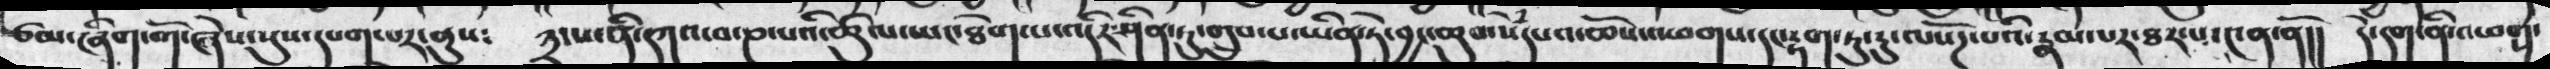ཙམ་ཞིག་གོ་ཞེས་སུས་དཔག་པར་ནུས༴ ༣་པ་ནི་དཀའ་བ་ཎ་པའི་ཚུལ་ཡང་ཐེག་པ་འདིར་ཤིན་ཏུ་གྲུབ་པ་ཡིན་ཏེ་བྱང་ཆུབ་སེཾདཔའ་ཆོས་འཕགས་དང་རྟག་ཏུ་རུ་ལསོཌ་པའི་རྣམ་པར་ཐར་པ་༤ན་ནོ།། དེ་དག་ནི་འཕག་
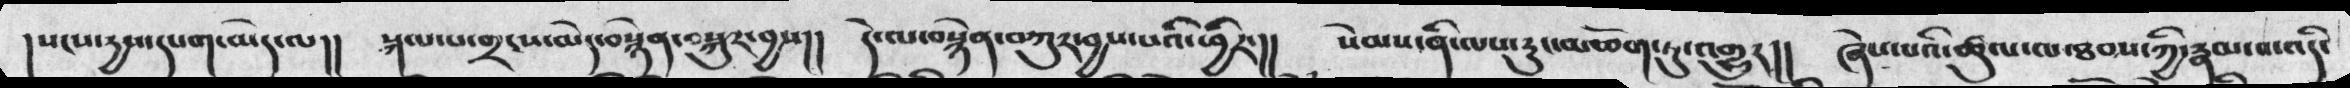།སངས་དྱས་དཔག་མེད་ལ།།  སྐལ་པ་གྲངས་མེད་བསྙེན་བསྐུར་བྱས།།  དེ་ལ་བསྙེན་བཀུར་བྱས་པའི་ཕྱིར་།།  སེམས་ནི་ལས་རུང་མཆོག་ཏུ་འགྱུར།།  ཞེས་པའི་ཚུལ་ལ་ཐབས་ཀྱི་རྣམ་པ་འདི་
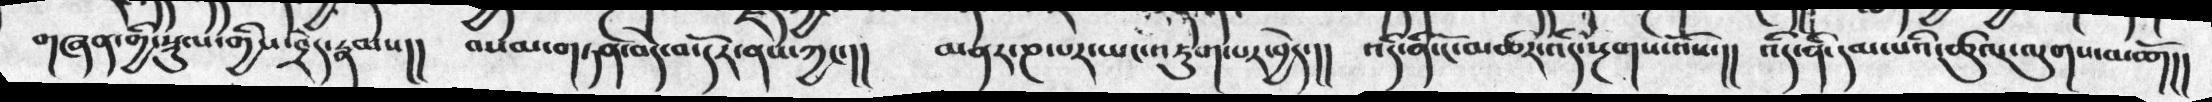གཞཉ་གྱི་སྡུལ་གྱིས་བྲེད་རྣམས།། བསམ་གཏན་བདེ་བ་དོར་ནས་ཀྱང་།། མནར་ཎ་པར་ཡང་འཇུག་པར་བྱེད་།། འདི་ནི་ངོ་མཚར་འདི་སྔགས་འོས་།། འདི་ནི་དམ་པའི་ཚུལ་ལུགས་མཆོད།།
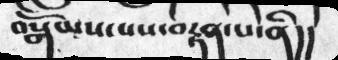བསྒོམས་པས་བརྟན་པ་ནི།།
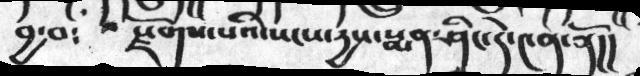བྱ་བ༴   སྫོགས་པའི་སངས་དྱས་སྨན་ཤིང་དེ་༤ན་ནོ།།
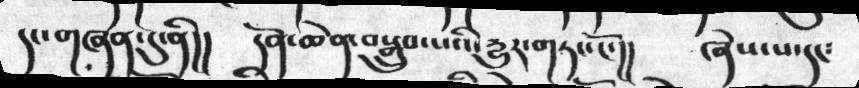དང་གཞན་དུ་ནི།།  དོན་ཆེན་བསྒྲུབ་པའི་རྱུར་གཏང་ངོ་།།  ཞེས་པ་དང༴
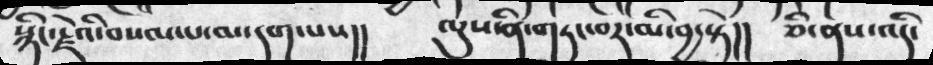སྙིང་རྗེའི་བསལ་པ་མ་དག་པས།།  ལུས་ནི་གརང་བར་མི་བྱ་སྟེ།།  ཅི་ནས་འདི་
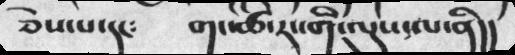ཅེས་པ་དང༴  གང་ཚེ་རང་གི་ལུས་ལ་ནི།།
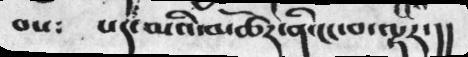བས༴  པད་མའི་མཚེར་ནི་ངང་བ་ལྟར་།།
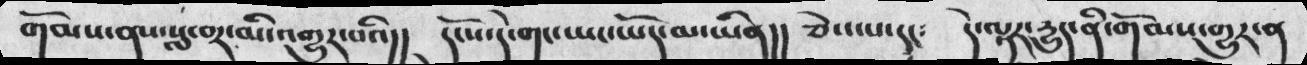གོམས་ནས་སླ་བར་མི་འགྱུར་བའི།། དངོས་དེ་གང་ཡང་ཡོད་མ་ཡིན།། ཅེས་པ་དང༴ དེ་ལྟར་རྱུད་ནི་གོམས་གྱུར་ན
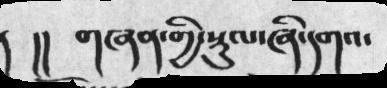། །། གཞན་གྱི་སྡུལ་ཞི་དགའ་
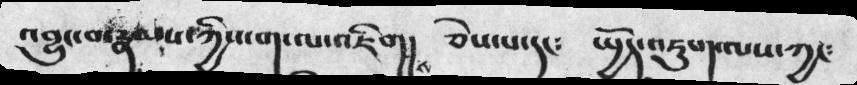འབྱུང་བ་རྣམས་ཀྱིས་ག་ལ་འཇིགས།      ཅེས་པ་དང༴     ཡྱོད་འཇུག་ལས་ཀྱང༴
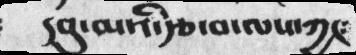དབུ་མའི་རྩ་བ་ལས་ཀྱང༴
